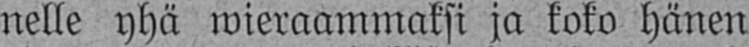nelle yhä wieraammaksi ja koko hänen
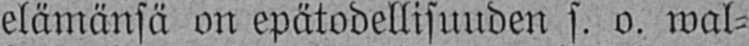elämänsä on epätodellisuuden s. o. wal-
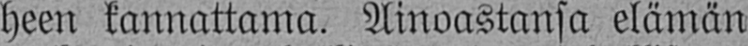heen kannattama. Ainoastansa elämän
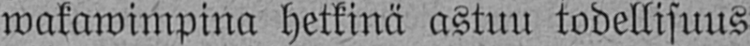wakawimpina hetkinä astuu todellisuus
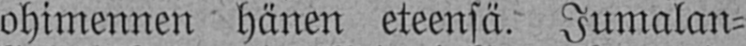ohimennen hänen eteensä. Jumalan-
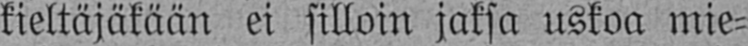kieltäjäkään ei silloin jaksa uskoa mie-
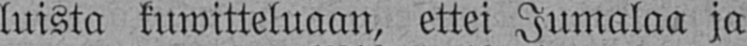luista kuwitteluaan, ettei Jumalaa ja
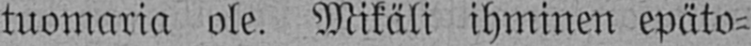tuomaria ole. Mikäli ihminen epäto-
